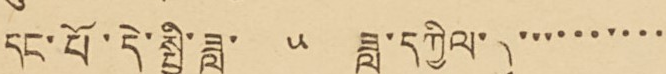དང་པོ་དེ་སྤྱི་ཟླ་ ༥ ཟླ་དཀྱིལ་དུ་་་་་་་་་་་
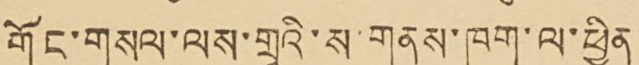གོང་གསལ་ལས་གྲྭའི་ས་གནས་ཁག་ལ་ཕྱིན་་
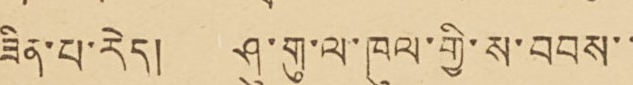ཟིན་པ་རེད། ཤུ་གུ་ལ་ཁུལ་གྱི་ས་བབས་་་
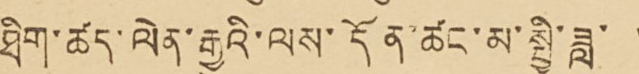ཐིག་ཚད་ལེན་རྒྱུའི་ལས་དོན་ཚང་མ་སྤྱི་ཟླ་ ༥
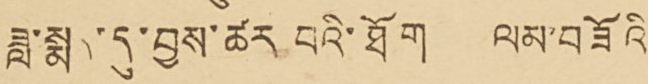ཟླ་སྨད་དུ་བྱས་ཚར བའི་ཐོག ལམ་བཟོའི་
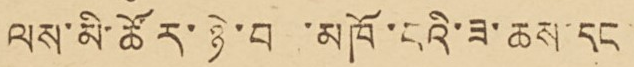ལས་མི་ཚོར་ཉེ་བ་ མཁོ་ངའི་ཟ་ཆས་དང་།
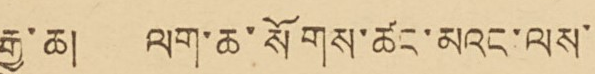རྒྱུ་ཆ། ལག་ཆ་སོགས་ཚང་མའང་ལས་་་
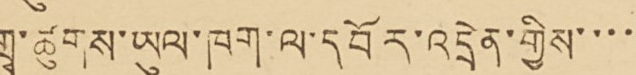གྲྭ་ཚུགས་ཡུལ་ཁག་ལ་དབོར་འདྲེན་གྱིས་་་་་
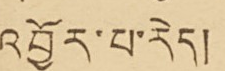འབྱོར་པ་རེད།
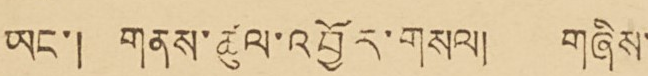ཨང་། གནས་ཚུལ་འབྱོར་གསལ། གཞིས་
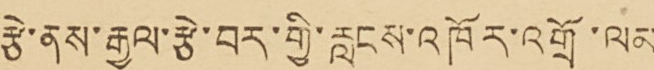རྩེ་ནས་རྒྱལ་རྩེ་བར་གྱི་རླངས་འཁོར་འགྲོ་ལམ་
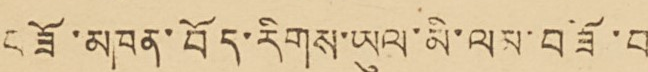བཟོ་མཁན་བོད་རིགས་ཡུལ་མི་ལམ་བཟོ་བ་
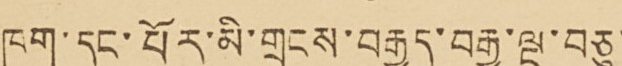ཁག་དང་པོར་མི་གྲངས་བརྒྱད་བརྒྱ་ལྔ་བཅུ་་་
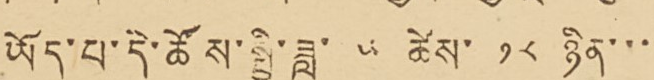ཡོད་པ་དེ་ཚོས་སྤྱི་ཟླ་ ༥ ཚེས་ ༡༨ ཉིན་་་་
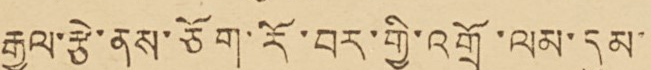རྒྱལ་རྩེ་ནས་ཅོག་རོ་བར་གྱི་འགྲོ་ལམ་དུམ་་
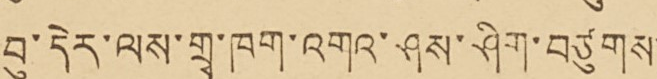བུ་དེར་ལས་གྲྭ་ཁག་འགའ་ཤས་ཤིག་བཙུགས་
